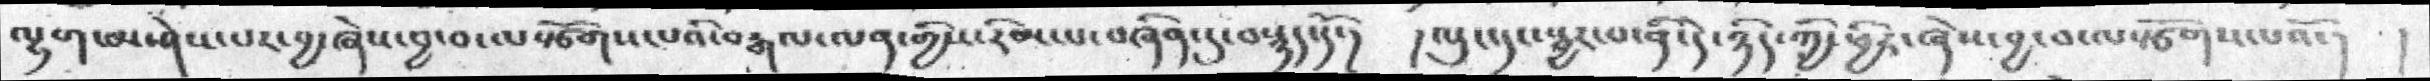ལྷག་མ་ཤེས་པར་བྱ་ཞེས་བྱ་བ་ལསྩོགས་པའི་བརྒལ་ལན་གྱིས་རིམ་པ་བཞིན་དུ་བསྙད་དོ་།  །ལུང་དང་སྦྱར་བ་ནི་དེ་ཉིད་ཀྱི་ཕྱིར་ཞེས་བྱ་བ་ལསྩོགས་པའོ་།  །
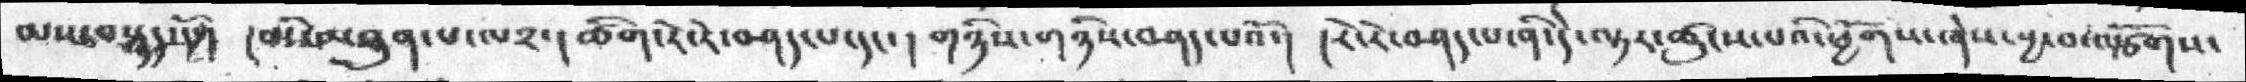མས་བསྙད་དོ་།  །མི་མཐུན་པ་ལ༢་། ཚིག་རེ་རེ་བཤད་པ་དང་།  གཉིས་གཉིས་བཤད་པའོ་། །རེ་རེ་བཤད་པ་ནི་དེ་ལྟར་ཚུངས་པའི་ཕྱོགས་ཞེས་བྱ་བ་ལསྩོགས་
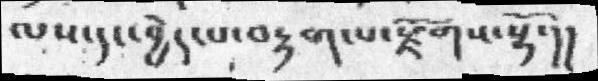ལས་དང་བྱེད་པ་བརྟག་པ་རྫོགས་སྷོ་།།
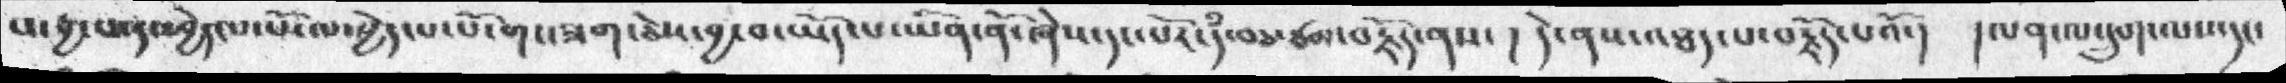པ་བྱ་བ་དང་བྱེད་པ་པོ་ལ་བྱེད་པ་པོ་གང་ཟག་ཅེས་བྱ་བ་ཡོད་པ་ཡིན་ནོ་ཞེས་དང་པོར་དཾ་བཅ་ཙམ་བརྗོད་ནས་  ། དེ་ནས་འཐད་པ་བརྗོད་པའོ་།   ། ལན་ལ་དྲུག་ལས་དང་
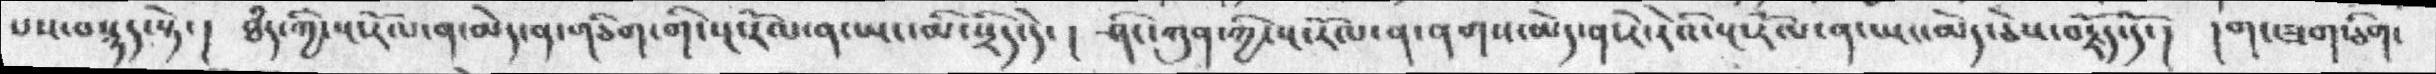པས་བསྙད་སྟེ་། ཐདཾ་ཀྱི་སྔ་རོལ་ན་མེད་ན་གཅིག་གི་སྔ་རོལ་ན་ཡང་མི་སྲིད་དེ་ ། ཤིང་ཀུན་ཀྱི་སྔ་རོལ་ན་ནགས་མེད་ན་རེ་རེའི་སྔ་རོལ་ན་ཡང་མེད་ཅེས་བརྗོད་དོ་།  །གང་ཟག་ཅིག་
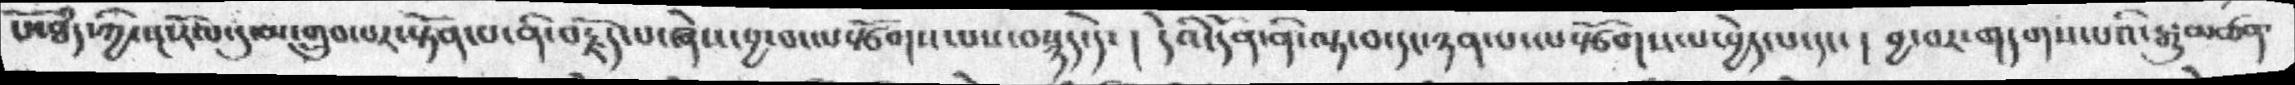པ་ཐདཾ་ཀྱི་སྔ་རོལ་དུ་མ་གྲུབ་པར་སྟོན་པ་ནི་བརྗོད་པ་ཞེས་བྱ་བ་ལསྩོགས་པས་བསྙད་དེ་   ། དེའི་དོན་ནི་ལྟ་བ་དང་ཉན་པ་ལསྩོགས་པ་བྱེད་པ་དང་   ། བྱ་བར་གདགས་པའི་རྒྱུ་མཚན་
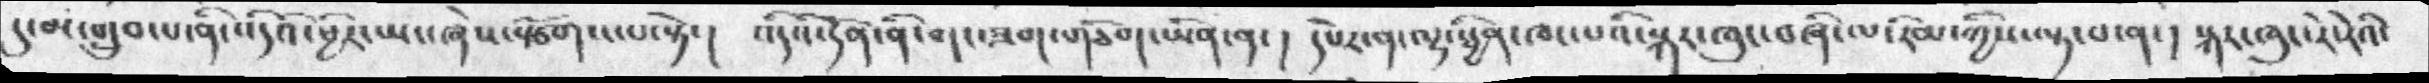དུ་མ་གྲུབ་པ་ནི་འདིའི་ཕྱིར་ཡང་ཞེས་སྩོགས་པ་སྟེ་ ། འདིའི་དོན་ནི་གང་ཟག་གཅིག་ཡིན་ན་ ། དཔེར་ན་ལྷ་སྦྱིན་ཁང་པའི་སྐར་ཁུང་བཞི་ལ་རིམ་ཀྱིས་ལྟ་བ་ན་ ། སྐར་ཁུང་རེ་རེའི་
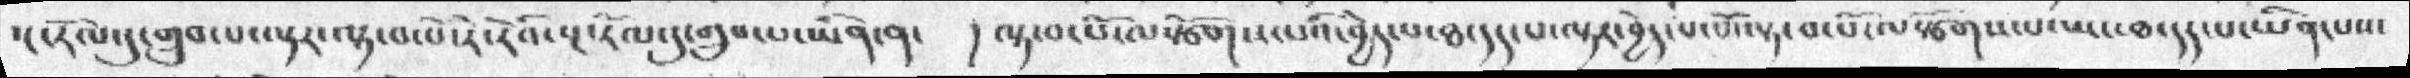སྔ་རོལ་དུ་གྲུབ་པ་ལྟར་ལྟ་བ་པོ་རེ་རེའོ་སྔ་རོལ་དུ་གྲུབ་པ་ཡིན་ན་  །ལྟ་བ་པོ་ལསྩོགས་པའི་བྱེད་པ་ཐ་དད་པ་ལྟར་བྱེད་པ་པོ་ལྟ་བ་པོ་ལསྩོགས་པ་ཡང་ཐ་དད་པ་ཡིན་པས་
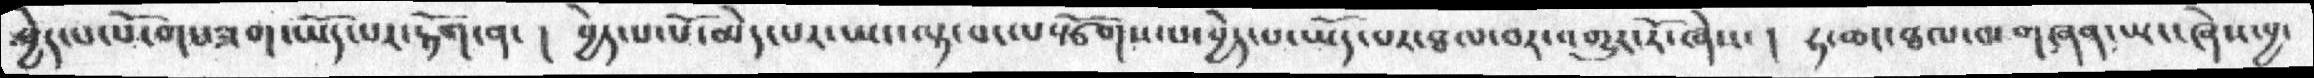བྱེད་པ་པོ་གང་ཟག་ཡོད་པར་རྟོག་ན་། བྱེད་པ་པོ་མེད་པར་ཡང་ལྟ་བ་ལསྩོགས་པ་བྱེད་པ་ཡོད་པར་ཐལ་བར་འགྱུར་རོ་ཞེས་། ཧ་ཆང་ཐལ་བ་གཞན་ཡང་ཞེས་བྱ་
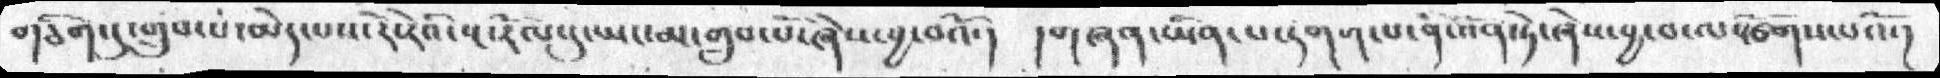གཅིག་དུ་གྲུབ་པ་མེད་པས་རེ་རེའི་སྔ་རོལ་དུ་ཡང་མ་གྲུབ་པོ་ཞེས་བྱ་བའོ་།  །གཞན་ཡིན་པ་དགག་པ་ནི་འོན་ཏེ་ཞེས་བྱ་བ་ལསྩོགས་པའོ་།
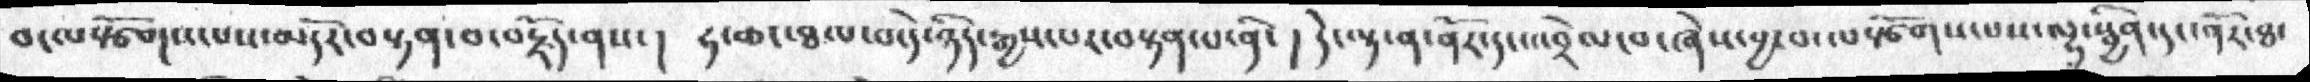བ་ལསྩོགས་པས་མདོར་བསྟན་བ་བརྗོད་ནས་། ཧ་ཆང་ཐལ་བ་དེ་ཉིད་རྒྱས་པར་བསྟན་པ་ནི་།  དེ་ལྟ་ན་ནོར་དང་འབྲེལ་བ་ཞེས་བྱ་བ་ལསྩོགས་པས་ལྷ་སྦྱིན་དང་ནོར་ཐ
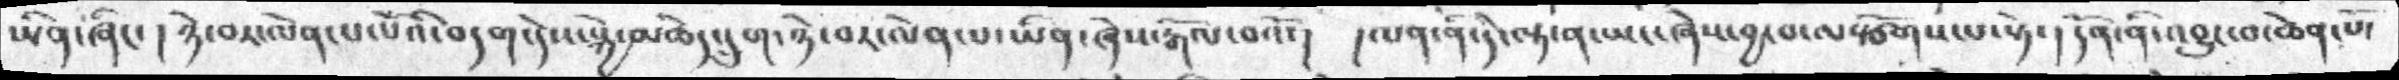ཡིན་ཞིང་།  ཉེ་བར་ལེན་པ་པོའི་བདག་དེས་སྐྱེ་མཆེད་དྲུག་ཉེ་བར་ལེན་པ་ཡིན་ཞེས་རྒོལ་བའོ་།  །ལན་ནི་དེ་ལྟ་ན་ཡང་ཞེས་བྱ་བ་ལསྩོགས་པ་སྟེ་། དོན་ནི་འབྱུང་བ་ཆེན་པོ་
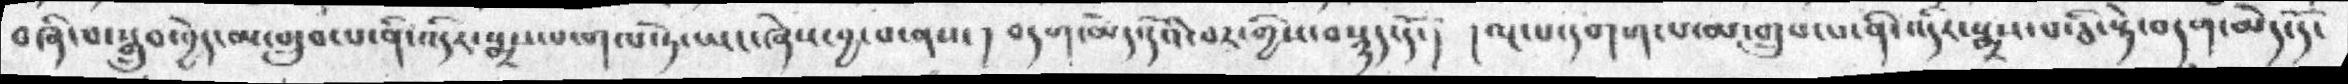བཞི་པ་སྒྲུབ་བྱེད་མ་གྲུབ་པ་ནི་འདིར་སྨྲས་པ་གལ་ཏེ་ཡང་ཞེས་བྱ་བ་ནས་།  བདག་མེད་དེའི་བར་གྱིས་བསྙད་དོ་།  །ལྔ་པ་དགག་པ་མ་གྲུབ་པ་ནི་འདིར་སྨྲས་པ་ཅི་སྟེ་བདག་མེད་དོ་
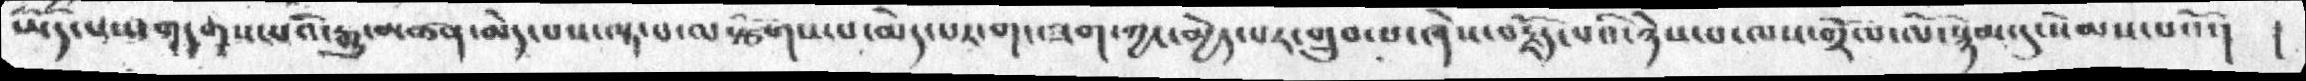ཡོད་པས་དགག་པའི་རྒྱུ་མཚན་མེད་པས་ལྟ་བ་ལསྩོགས་པ་མེད་པར་གང་ཟག་ཀྱང་མྱེད་པར་གྲུབ་པ་ཞེས་བརྗོད་པའི་ཉེས་པ་ལས་གྲོལ་ལོ་སྙམ་དུ་སེམས་འོ་། །
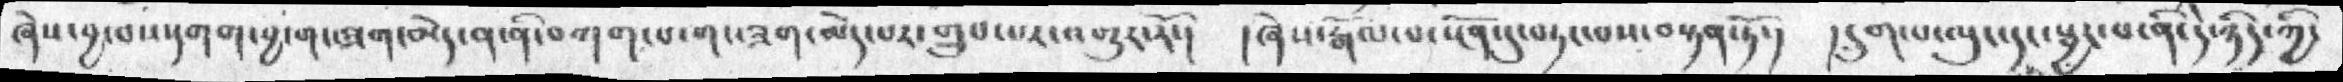ཞེས་བྱ་བས་དགག་བྱ་གང་ཟག་མེད་ན་ནི་བཀག་པ་གང་ཟག་མེད་པར་གྲུབ་པར་འགུར་རོ་། །ཞེས་རྒོལ་པ་སྔོན་དུ་བཏང་བས་བསྟན་ཏོ་། །དྲུག་པ་ལུང་དང་སྦྱར་པ་ནི་དེ་ཉིད་ཀྱི་
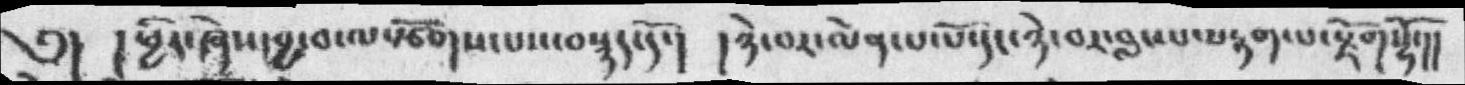༅། །ཕྱིར་ཞེས་བྱ་བ་ལསྩོགས་པས་བསྙད་དོ་།  །ཉེ་བར་ལེན་པ་པོ་དང་ཉེ་བར་བླང་པ་བརྟག་པ་རྫོགསྷོ་།།
